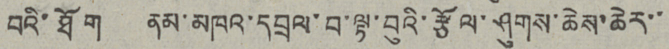བའི་ཐོག ནམ་མཁའ་དབྲལ་བ་ལྟ་བུའི་རྩོལ་ཤུགས་ཆེས་ཆེར་་
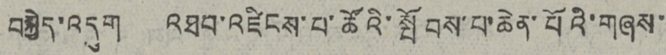བསྐྱེད་འདུག འཐབ་འཛིངས་པ་ཚོའི་སྤོབས་པ་ཆེན་པོའི་གཞས་
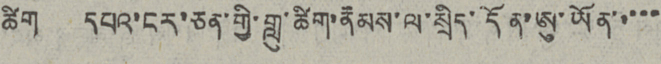ཚིག  དཔའ་ངར་ཅན་གྱི་གླུ་ཚིག་རྣམས་ལ་སྲིད་དོན་ཨུ་ཡོན་་་་་
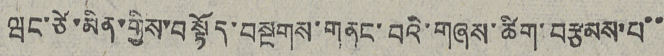ཝང་ཙེ་མིན་གྱིས་བསྟོད་བསྔགས་གནང་བའི་གཞས་ཚིག་བརྩམས་པ་་
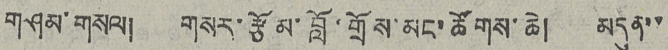གཤམ་གསལ། གསར་རྩོམ་བློ་གྲོས་མང་ཚོགས་ཆེ། མདུན་་
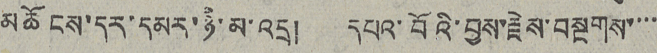མཆོངས་དར་དམར་ཉི་མ་འདྲ། དཔའ་བོའི་བྱས་རྗེས་བསྔགས་་་་
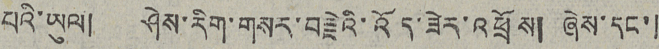པའི་ཡུལ། ཤེས་རིག་གསར་བརྗེའི་འོད་ཟེར་འཕྲོས། ཞེས་དང་།
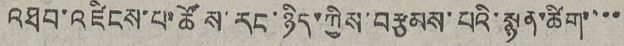འཐབ་འཛིངས་པ་ཚོས་རང་ཉིད་ཀྱིས་བརྩམས་པའི་སྙན་ཚིག་་་
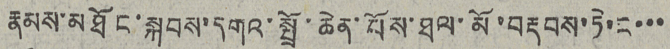རྣམས་མཐོང་སྐབས་དགའ་སྤྲོ་ཆེན་པོས་ཐལ་མོ་བརྡབས་ཏེ་ང་་་
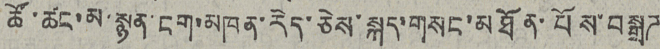ཚོ་ཚང་མ་སྙན་ངག་མཁན་རེད་ཅེས་སྐད་གསང་མཐོན་པོས་བསྒྲཌ
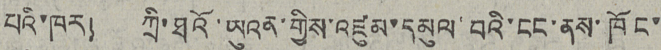པའི་ཁར།  ཀྲི་ཐའོ་ཡུའན་གྱིས་འཛུམ་དམུལ་བའི་ངང་ནས་ཁོང་
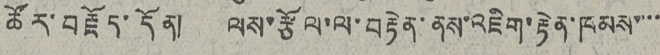ཚོར་བརྗོད་དོན།   ལས་རྩོལ་ལ་བརྟེན་ནས་འཇིག་རྟེན་ཁམས་་་
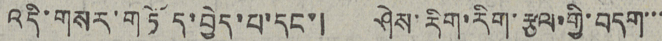འདི་གསར་གཏོད་བྱེད་པ་དང་།  ཤེས་རིག་རིག་རྩལ་གྱི་བདག་་་
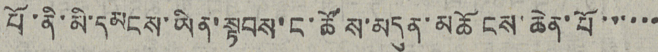པོ་ནི་མི་དམངས་ཡིན་སྟབས་ང་ཚོས་མདུན་མཆོངས་ཆེན་པོ་་་་་་
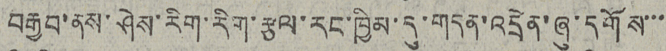བརྒྱབ་ནས་ཤེས་རིག་རིག་རྩལ་རང་ཁྱིམ་དུ་གདན་འདྲེན་ཞུ་དགོས་་་
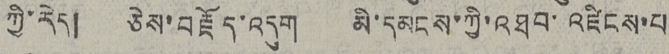ཀྱི་རེད། ཅེས་བརྗོད་འདུག མི་དམངས་ཀྱི་འཐབ་འཛིངས་པ
